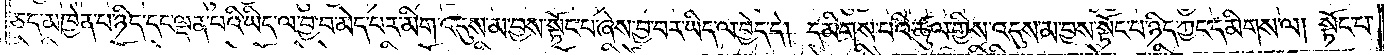ཅད་མཁྱེན་པ་ཉིད་དང་ལྡན་པའི་ཡིད་ལ་བྱ་བ་མེད་པར་མིག་འདུས་མ་བྱས་སྟོང་པ་ཞེས་བྱ་བར་ཡིད་ལ་བྱེད་དེ། དམིགས་པའི་ཚུལ་གྱིས་འདུས་མ་བྱས་སྟོང་པ་ཉིད་ཀྱང་དམིགས་ལ། སྟོང་པ་
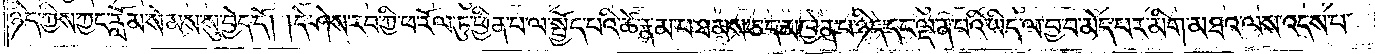ཉིད་ཀྱིས་ཀྱང་རློམ་སེམས་སུ་བྱེད་དོ། །དེ་ཤེས་རབ་ཀྱི་ཕ་རོལ་ཏུ་ཕྱིན་པ་ལ་སྤྱོད་པའི་ཚེ་རྣམ་པ་ཐམས་ཅད་མཁྱེན་པ་ཉིད་དང་ལྡན་པའི་ཡིད་ལ་བྱ་བ་མེད་པར་མིག་མཐའ་ལས་འདས་པ་
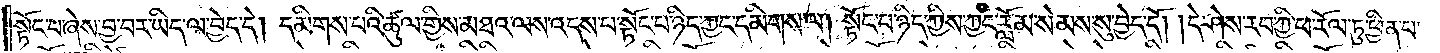སྟོང་པ་ཞེས་བྱ་བར་ཡིད་ལ་བྱེད་དེ། དམིགས་པའི་ཚུལ་གྱིས་མཐའ་ལས་འདས་པ་སྟོང་པ་ཉིད་ཀྱང་དམིགས་ལ། སྟོང་པ་ཉིད་ཀྱིས་ཀྱང་རློམ་སེམས་སུ་བྱེད་དོ། །དེ་ཤེས་རབ་ཀྱི་ཕ་རོལ་ཏུ་ཕྱིན་པ་
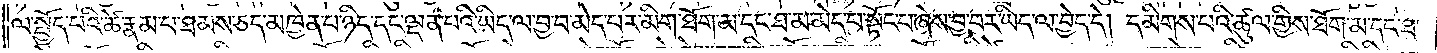ལ་སྤྱོད་པའི་ཚེ་རྣམ་པ་ཐམས་ཅད་མཁྱེན་པ་ཉིད་དང་ལྡན་པའི་ཡིད་ལ་བྱ་བ་མེད་པར་མིག་ཐོག་མ་དང་ཐ་མ་མེད་པ་སྟོང་པ་ཞེས་བྱ་བར་ཡིད་ལ་བྱེད་དེ། དམིགས་པའི་ཚུལ་གྱིས་ཐོག་མ་དང་ཐ་
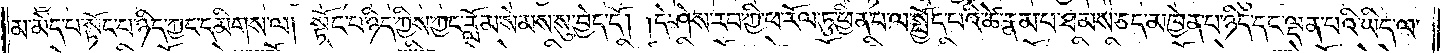མ་མེད་པ་སྟོང་པ་ཉིད་ཀྱང་དམིགས་ལ། སྟོང་པ་ཉིད་ཀྱིས་ཀྱང་རློམ་སེམས་སུ་བྱེད་དོ། །དེ་ཤེས་རབ་ཀྱི་ཕ་རོལ་ཏུ་ཕྱིན་པ་ལ་སྤྱོད་པའི་ཚེ་རྣམ་པ་ཐམས་ཅད་མཁྱེན་པ་ཉིད་དང་ལྡན་པའི་ཡིད་ལ་
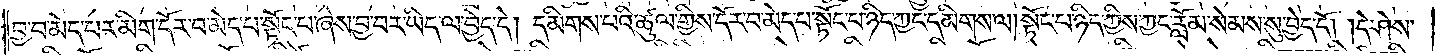བྱ་བ་མེད་པར་མིག་དོར་བ་མེད་པ་སྟོང་པ་ཞེས་བྱ་བར་ཡིད་ལ་བྱེད་དེ། དམིགས་པའི་ཚུལ་གྱིས་དོར་བ་མེད་པ་སྟོང་པ་ཉིད་ཀྱང་དམིགས་ལ། སྟོང་པ་ཉིད་ཀྱིས་ཀྱང་རློམ་སེམས་སུ་བྱེད་དོ། །དེ་ཤེས་
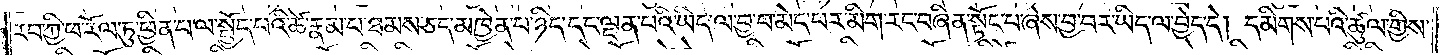རབ་ཀྱི་ཕ་རོལ་ཏུ་ཕྱིན་པ་ལ་སྤྱོད་པའི་ཚེ་རྣམ་པ་ཐམས་ཅད་མཁྱེན་པ་ཉིད་དང་ལྡན་པའི་ཡིད་ལ་བྱ་བ་མེད་པར་མིག་རང་བཞིན་སྟོང་པ་ཞེས་བྱ་བར་ཡིད་ལ་བྱེད་དེ། དམིགས་པའི་ཚུལ་གྱིས་
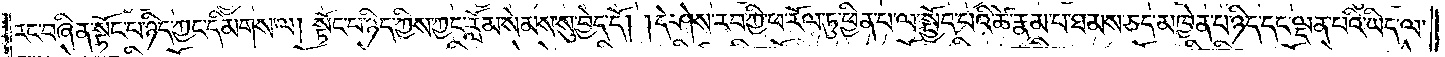རང་བཞིན་སྟོང་པ་ཉིད་ཀྱང་དམིགས་ལ། སྟོང་པ་ཉིད་ཀྱིས་ཀྱང་རློམ་སེམས་སུ་བྱེད་དོ། །དེ་ཤེས་རབ་ཀྱི་ཕ་རོལ་ཏུ་ཕྱིན་པ་ལ་སྤྱོད་པའི་ཚེ་རྣམ་པ་ཐམས་ཅད་མཁྱེན་པ་ཉིད་དང་ལྡན་པའི་ཡིད་ལ་
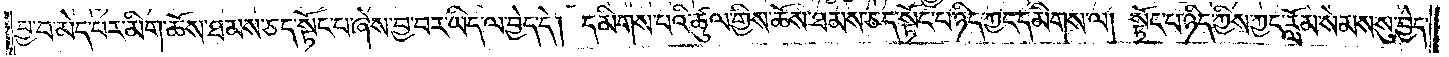བྱ་བ་མེད་པར་མིག་ཆོས་ཐམས་ཅད་སྟོང་པ་ཞེས་བྱ་བར་ཡིད་ལ་བྱེད་དེ། དམིགས་པའི་ཚུལ་གྱིས་ཆོས་ཐམས་ཅད་སྟོང་པ་ཉིད་ཀྱང་དམིགས་ལ། སྟོང་པ་ཉིད་ཀྱིས་ཀྱང་རློམ་སེམས་སུ་བྱེད་
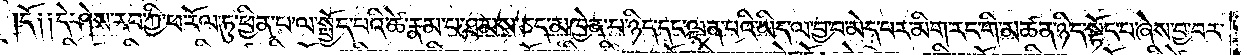དོ༑ ༑དེ་ཤེས་རབ་ཀྱི་ཕ་རོལ་ཏུ་ཕྱིན་པ་ལ་སྤྱོད་པའི་ཚེ་རྣམ་པ་ཐམས་ཅད་མཁྱེན་པ་ཉིད་དང་ལྡན་པའི་ཡིད་ལ་བྱ་བ་མེད་པར་མིག་རང་གི་མཚན་ཉིད་སྟོང་པ་ཞེས་བྱ་བར་
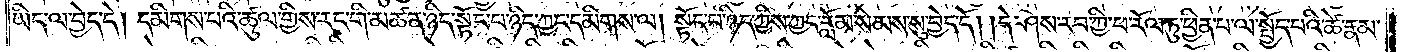ཡིད་ལ་བྱེད་དེ། དམིགས་པའི་ཚུལ་གྱིས་རང་གི་མཚན་ཉིད་སྟོང་པ་ཉིད་ཀྱང་དམིགས་ལ། སྟོང་པ་ཉིད་ཀྱིས་ཀྱང་རློམ་སེམས་སུ་བྱེད་དོ། །དེ་ཤེས་རབ་ཀྱི་ཕ་རོལ་ཏུ་ཕྱིན་པ་ལ་སྤྱོད་པའི་ཚེ་རྣམ་
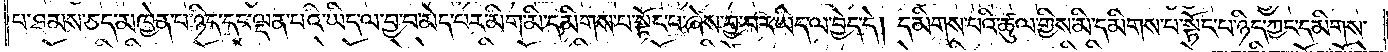པ་ཐམས་ཅད་མཁྱེན་པ་ཉིད་དང་ལྡན་པའི་ཡིད་ལ་བྱ་བ་མེད་པར་མིག་མི་དམིགས་པ་སྟོང་པ་ཞེས་བྱ་བར་ཡིད་ལ་བྱེད་དེ། དམིགས་པའི་ཚུལ་གྱིས་མི་དམིགས་པ་སྟོང་པ་ཉིད་ཀྱང་དམིགས་
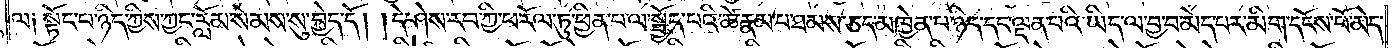ལ༑ སྟོང་པ་ཉིད་ཀྱིས་ཀྱང་རློམ་སེམས་སུ་བྱེད་དོ། །དེ་ཤེས་རབ་ཀྱི་ཕ་རོལ་ཏུ་ཕྱིན་པ་ལ་སྤྱོད་པའི་ཚེ་རྣམ་པ་ཐམས་ཅད་མཁྱེན་པ་ཉིད་དང་ལྡན་པའི་ཡིད་ལ་བྱ་བ་མེད་པར་མིག་དངོས་པོ་མེད་
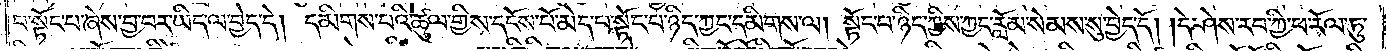པ་སྟོང་པ་ཞེས་བྱ་བར་ཡིད་ལ་བྱེད་དེ། དམིགས་པའི་ཚུལ་གྱིས་དངོས་པོ་མེད་པ་སྟོང་པ་ཉིད་ཀྱང་དམིགས་ལ། སྟོང་པ་ཉིད་ཀྱིས་ཀྱང་རློམ་སེམས་སུ་བྱེད་དོ། །དེ་ཤེས་རབ་ཀྱི་ཕ་རོལ་ཏུ་
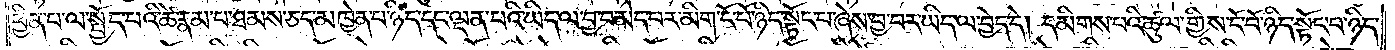ཕྱིན་པ་ལ་སྤྱོད་པའི་ཚེ་རྣམ་པ་ཐམས་ཅད་མཁྱེན་པ་ཉིད་དང་ལྡན་པའི་ཡིད་ལ་བྱ་བ་མེད་པར་མིག་ངོ་བོ་ཉིད་སྟོང་པ་ཞེས་བྱ་བར་ཡིད་ལ་བྱེད་དེ། དམིགས་པའི་ཚུལ་གྱིས་ངོ་བོ་ཉིད་སྟོང་པ་ཉིད་
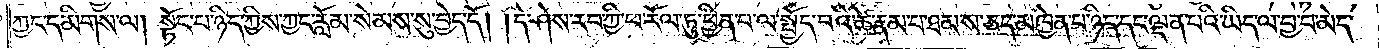ཀྱང་དམིགས་ལ། སྟོང་པ་ཉིད་ཀྱིས་ཀྱང་རློམ་སེམས་སུ་བྱེད་དོ། །དེ་ཤེས་རབ་ཀྱི་ཕ་རོལ་ཏུ་ཕྱིན་པ་ལ་སྤྱོད་པའི་ཚེ་རྣམ་པ་ཐམས་ཅད་མཁྱེན་པ་ཉིད་དང་ལྡན་པའི་ཡིད་ལ་བྱ་བ་མེད་
